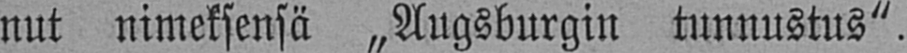nut nimeksensä „Augsburgin tunnustus".
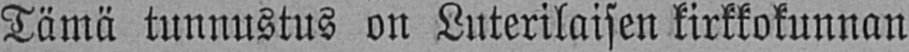Tämä tunnustus on Luterilaisen kirkkokunnan
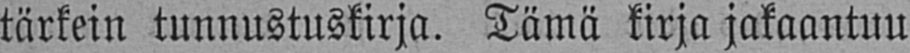tärkein tunnustuskirja. Tämä kirja jakaantuu
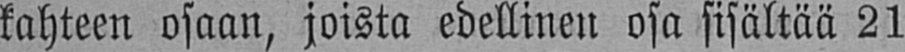kahteen osaan, joista edellinen osa sisältää 21
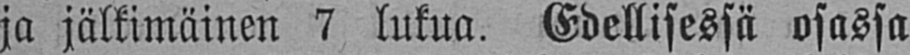ja jälkimäinen 7 lukua. Edellisessä osassa
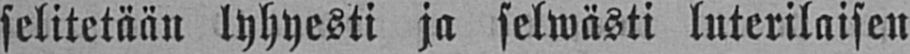selitetään lyhyesti ja selwästi luterilaisen
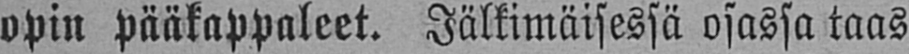opin pääkappaleet. Jälkimäisessä osassa taas
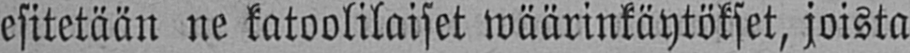esitetään ne katoolilaiset wäärinkäytökset, joista
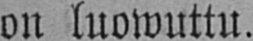on luowuttu.
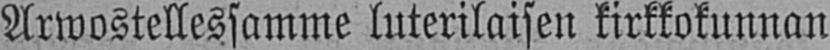Arwostellessamme luterilaisen kirkkokunnan
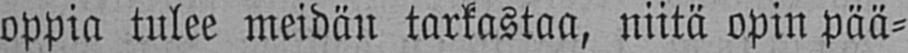oppia tulee meidän tarkastaa, niitä opin pää-
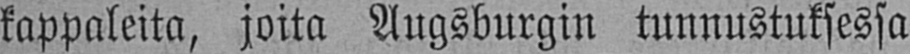kappaleita, joita Augsburgin tunnustuksessa
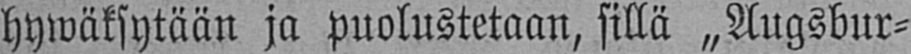hywäksytään ja puolustetaan, sillä „Augsbur-
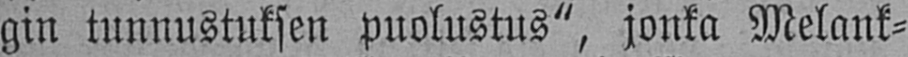gin tunnustuksen puolustus", jonka Melank-
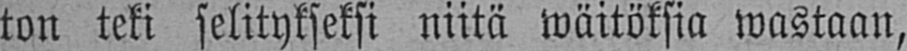ton teki selitykseksi niitä wäitöksia wastaan,
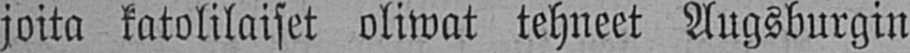joita katolilaiset oliwat tehneet Augsburgin
